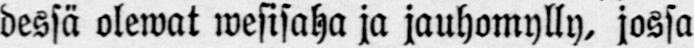dessä olewat wesisaha ja jauhomylly, jossa
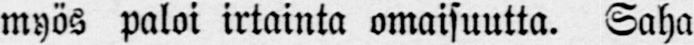myös paloi irtainta omaisuutta. Saha
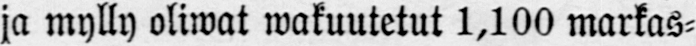ja mylly oliwat wakuutetut 1,100 markas-
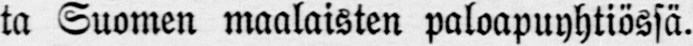ta Suomen maalaisten paloapuyhtiössä.
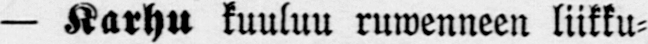— Karhu kuuluu ruwenneen liikku-
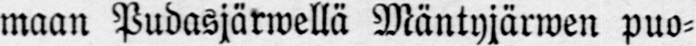maan Pudasjärwellä Mäntyjärwen puo-
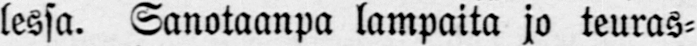lessa. Sanotaanpa lampaita jo teuras-
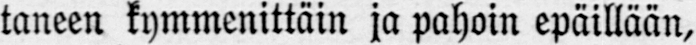taneen kymmenittäin ja pahoin epäillään,
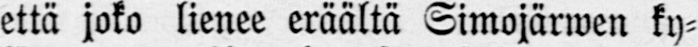että joko lienee eräältä Timojärwen ky-
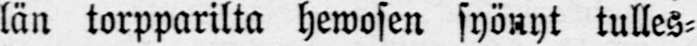län torpparilta hewosen syönyt tulles-
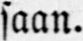saan.
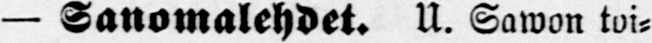— Sanomalehdet. U. Sawon toi-
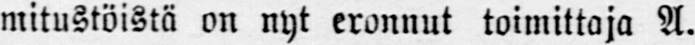mitustöistä on nyt eronnut toimittaja A.
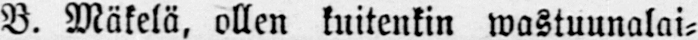B. Mäkelä, ollen kuitenkin wastuunalai-
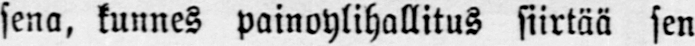sena, kunnes painoylihallitus siirtää sen
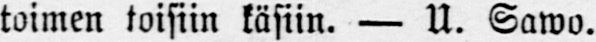toimen toisiin käsiin. — U. Sawo.
